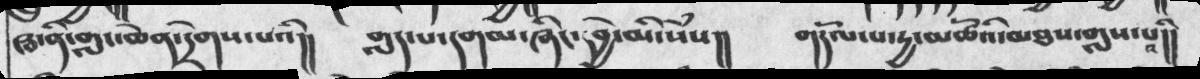ཝ་ནི་གླང་ཆེན་དྲེགས་པའི།།  གླད་པ་དགམ་ཞིང་དབྱེ་མི་སེྃས།།   གདོལ་པ་རྱ་མཚོའི་མཐས་གླས་པའི།།
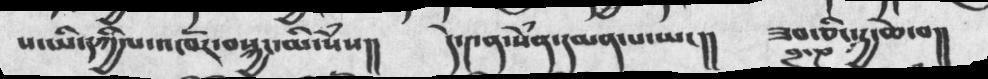ས་ཡི་དཀྱིལ་འཁོར་བསྐྱང་མི་སེྃས།།  དེ་༤ན་སེཾན་དམན་པ་ཡང།།  ཟབ་ཅིང་དྱ་ཆེ་བ།།
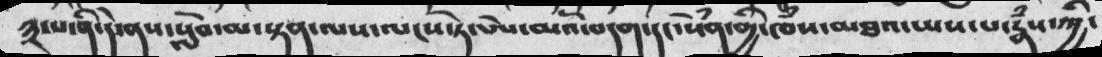༣་པ་ནི་དེ་ནས་སློབ་མ་སྟན་ལས་ལངས་ཏེ་པེས་མའོ་བདག་དང་སེཾན་གྱི་ཁཾས་མཐའ་ཡས་པ་རྣཾས་ཀྱི་
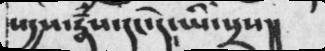སདྱས་རྣཾས་དང་དེ་ཡི་སྲས།།
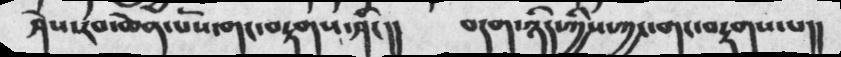ཤེས་རབ་ཆེན་པོས་གང་བརྟགས་ཤིང།།  བདག་ཉིད་ཀྱིས་ཀྱང་གང་བརྟགས་པ།།
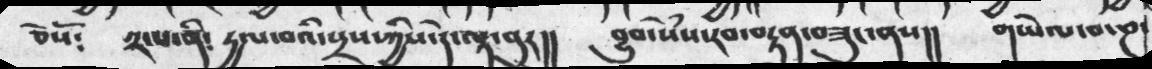ཅེསོ༴  ༢་པ་ནི༴  དྱལ་བའི་སྲས་ཀྱིས་དེ་ལྟ་བུར།།  བྱུབ་སེྃས་རབ་བརྟན་བཟུང་ནས།།  གཡེལ་བ་ཎ་
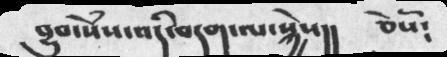བྱུབ་སེཾས་འདི་བདག་ལ་སྐྱེས།།  ཅེསོ༴
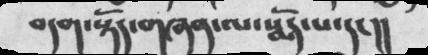བདག་སྟོད་གཞན་ལ་སྨོད་པ་དང།།
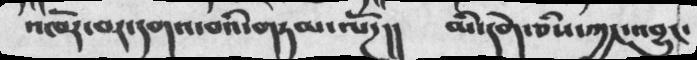འཁོར་བར་དགའ་བའི་གཏམ་ལོཌ།།  མི་དགེ་ཅིས་ཀྱང་འབྱུང་
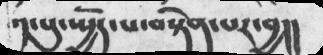༡་པུ་སྤྱོད་པ་བསྟེན་པར་བྱ།།
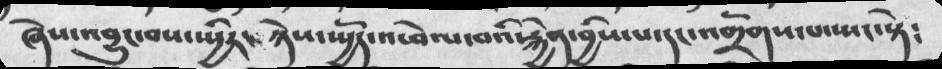ཞེས་འབྱུང་བས་སྤྱིར་  ཉེས་སྤྱོད་འཕེལ་བའི་རྐྱེན་བྱིས་པ་་དང་འགྲོགས་པ་སྤང་སྟེ༴
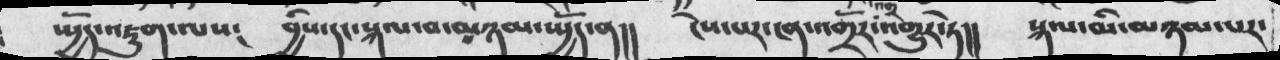སྤྱོད་འཇུག་ལས༴  བྱིས་དང་སྐལ་བ་མཉམ་སྤྱོད་ན།།  ངེས་པར་ངན་འགྲོར་འགྱུར་ཏེ།།  སྐལ་མི་མཉམ་པར་
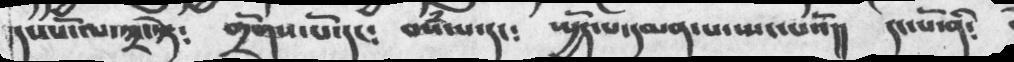དང་པོ་ལ་༣་སྟེ༴  གྲོགས་པོ་དང༴  བསཾ་པ་དང༴  སྤྱོད་པ་དམན་པ་ཡང་པའོ།།  དང་པོ་ནི༴
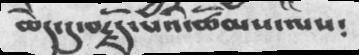ཆེད་དུ་བརྗོད་པའི་ཚོམས་ལས༴
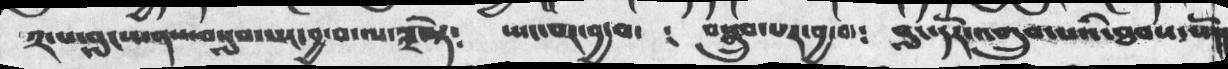༢་པ་བླངས་ནས་བསླབ་པར་བྱ་བ་ལ་༢་སྟེ༴  ཡང་བར་བྱ་བ་  ༴  བསྒྲུབ་པར་བྱ་བ་༴  བླང་དོར་འགྲུབ་པའི་ཐབས་སོ།།
